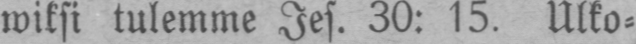wiksi tulemme Jes. 30: 15. Ulko-
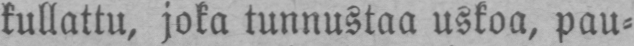kullattu, joka tunnustaa uskoa, pau-
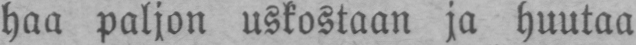haa paljon uskostaan ja huutaa
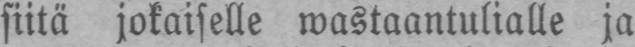siitä jokaiselle wastaantulialle ja
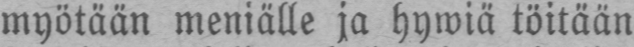myötään meniälle ja hywiä töitään
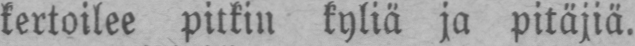kertoilee pilkin kyliä ja pitäjiä.
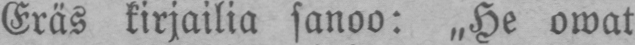Eräs kirjailia sanoo: „He owat
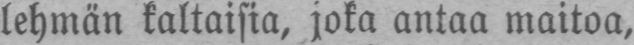lehmän kaltaisia, joka antaa maitoa,
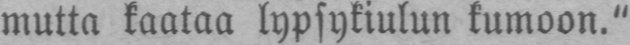mutta kaataa lypsykiulun kumoon."
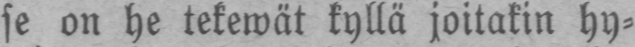se on he tekewät kyllä joitakin hy-
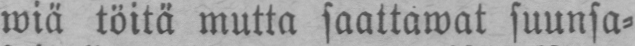wiä töitä mutta saattawat suunsa-
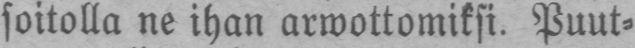soitolla ne ihan arwottomiksi. Puut-
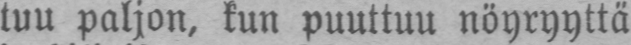tuu paljon, kun puuttuu nöyryyttä
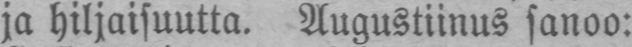ja hiljaisuutta. Augustiinus sanoo:
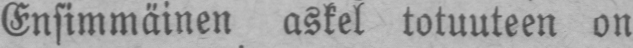Ensimmäinen askel totuuteen on
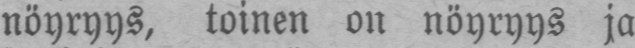nöyryys, toinen on nöyryys ja
